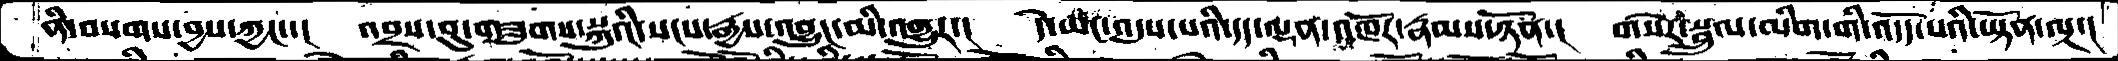ནི་བསགས་བྱས་ཀྱང་་།  འབྲས་བུ་གཟུགས་སྐུའི་སངས་རྒྱས་འབྱུང་མི་འགྱུར་།  དེ་ཡང་འདུས་པའི་དད་ལྡན་འཁོར་རྣམས་ཉོན་། གསེར་སྦྲུལ་མིག་གི་འདོད་པའི་ཡྟོན་ལྔ་།
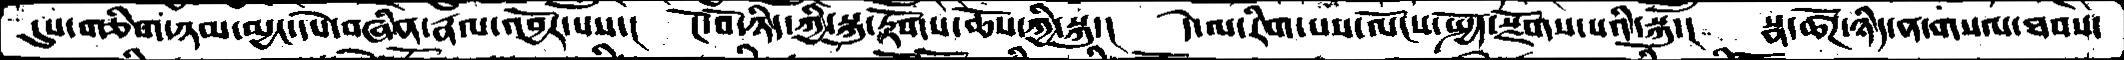དུས་གཅིག་ཉམ་མྱང་དཔེ་བཞིན་རྣལ་འབྱོར་པས་།  ངོ་བོ་ཉིད་ཀྱི་སྐུ་རྟོགས་ཆོས་ཀྱི་སྐུ་།  དེ་ལ་རིག་པས་ལོངས་སྤྱོད་སྫོགས་པའི་སྐུ་།  སྣ་ཚོཌ་ཉིད་ན་གསལ་ཐབས་
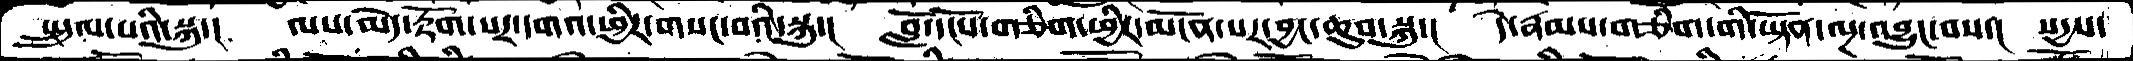སྤྲུལ་པའི་སྐུ་།  ལས་མེད་རྟོག་པར་དགའ་ཕྱིར་གསང་བའི་སྐུ་།  བློ་དངོས་གཅིག་ཕྱིར་མངོན་པར་བྱང་ཆུབ་སྐུ་།  དེ་རྣམས་གཅིག་གི་ཡྟོན་ལྔ་འབྱུང་པས་།  སདྱས་
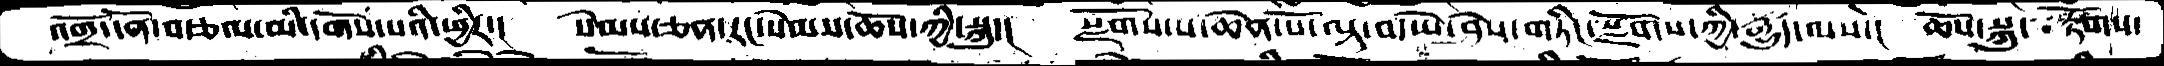འགྲོ་དོན་བརྩལ་མི་དགོས་པའི་ཕྱིར་།  སེམས་ཅན་རང་སེམས་ཆོས་ཀྱི་སྐུ་། སྫོགས་པ་ཆེན་པོ་ལྟ་བ་ཡེ་ཤེས་གཏིང་སྫོགས་ཀྱི་རྒྱུད་ལས་།  ཆོས་སྐུ་  རྟོགས་
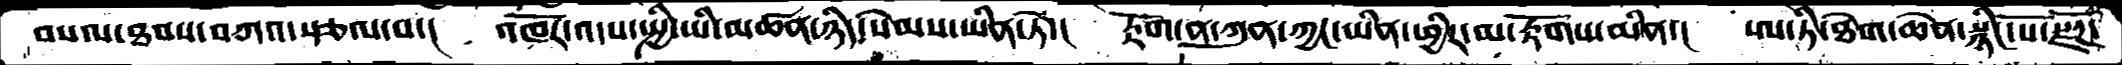བསལ་ཐབས་བཀའ་སྩལ་པ་།  འཁོར་འདས་སྤྱི་ཡི་མཚན་ཉིད་སེམས་ཡིན་ཏེ་།  རྟོག་ན་ཀུན་ཀྱང་ཡིན་ཕྱིར་མ་རྟོགས་མིན་།  ཨ་ཏི་ཐེག་ཆེན་སྙིང་པོ་སྫོཌ་
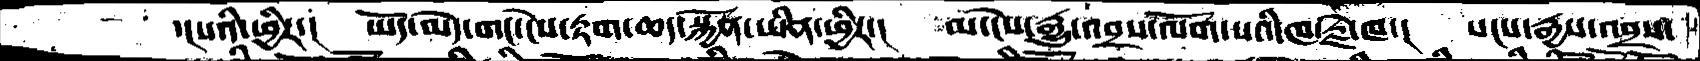་།པའི་ཕྱིར་།    ཡོད་མེད་གང་ངེས་རྟག་ཆད་སྐྱོན་ཡིན་ཕྱིར་།    མ་ངེས་རྒྱུ་འབྲས་ལོག་པའི་ཁ་རྗེ་ཁ་།    སངས་རྒྱས་འབྲས་
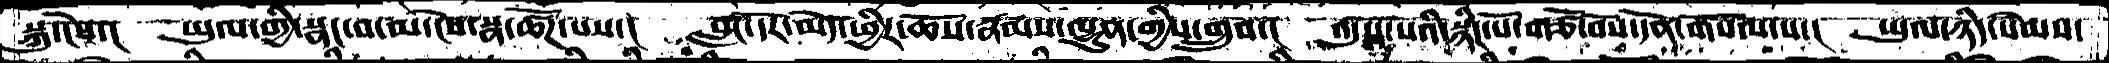སྐུ་ངེས་།   ཡུལ་གྱི་སྣང་བ་མ་ངེས་སྣ་ཚོཌ་པས་།   བླང་དོར་མེད་ཕྱིར་ཆོས་རྣམས་ལྷུན་གྱིས་གྲུབ་།   འདུས་པའི་སྙིང་པོ་གཙོ་བོས་དོན་གསལ་པ་།   ཡུལ་ཉིད་སེམས་
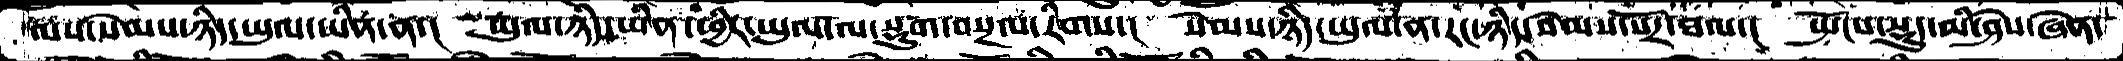ལས་སེམས་ཉིད་ཡུལ་ཡིན་ན་།   ཡུལ་ཉིད་ཡིན་ཕྱིར་ཡུལ་ལ་སྡུག་བསྔལ་རིགས་།   སེམས་ཉིད་ཡུལ་ན་རང་ཉིད་བེམས་པོར་ཐལ་།   སྤོངས་སྡུད་མི་ཤེས་ཞེན་
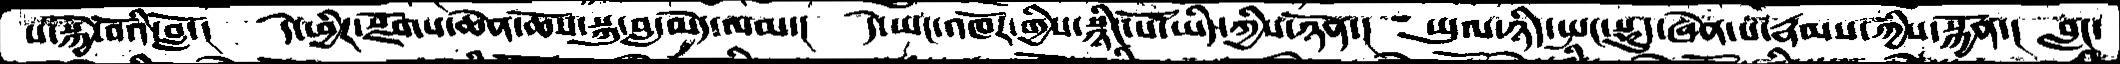པ་སྐྱེ་བོའི་བློ་།   དེ་ཕྱིར་སྫོགས་ཆེན་ཆོས་སྐུ་བླ་མེད་ལམ་།   དེ་ཡང་འཁོར་གྱིས་སྙིང་པོ་ཡིད་ཀྱིས་ཉོན་།   ཡུལ་ཉིད་སྤང་སྡུད་ཞེན་པ་རྣམས་ཀྱིས་སྐྱོན་།   བླང་
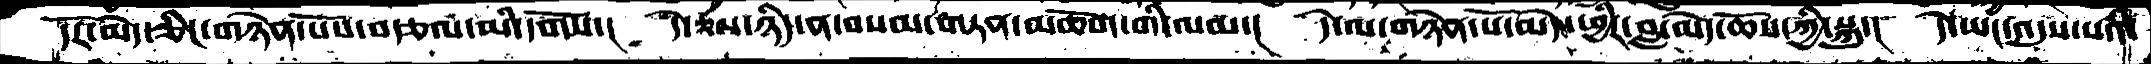དོར་མེད་ཅིང་གཉེན་པོས་བརྩལ་མི་དགོས་།   དེ་ཙམ་ཉིད་ན་བསམ་གཏན་མཆོག་གི་ལམ་།   དེ་ལ་གཉེན་པོ་མེད་ཕྱིར་བླ་མེད་ཆོས་ཀྱི་སྐུ་།    དེ་ཡང་འདུས་པའི་
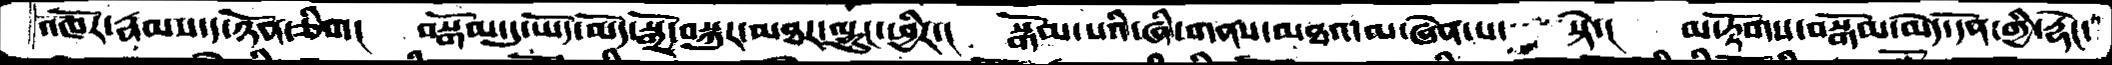འཁོར་རྣམས་ད་ཉོན་ཅིག།  བསྒོམ་དུ་ཡོད་མོད་སྒྲོ་བསྐུར་མཐར་ལྟུང་ཕྱིར་།  སྒོམ་པའི་ཞི་གནས་མཐའ་མ་ཞེས་པ་  སྟེ་།  མ་་རྟོགས་བསྒོམ་མེད་དོན་གྱི་རྡེང་
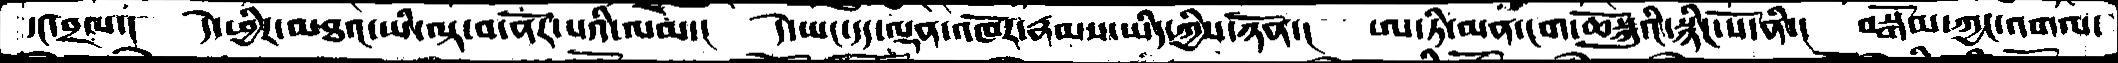དང་བྲལ་།  དེ་ཕྱིར་མཐའ་ཡི་ལྟ་བ་ནོར་པའི་ལམ་།  དེ་ཡང་དད་ལྡན་འཁོར་རྣམས་ཡིད་ཀྱིས་ཉོན་། ཨ་ཏི་མན་ངག་ཆོསྐུའི་སྙིང་པོ་ནི་། བསྒོམ་ཀྱང་འགལ་
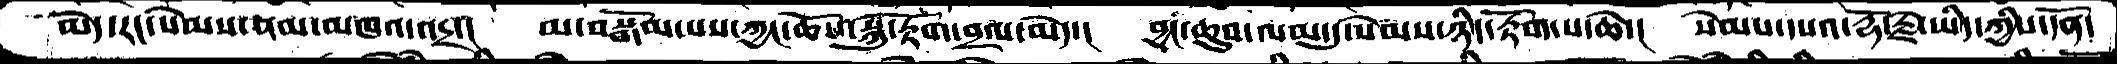མེད་རང་སེམས་ནམ་མཁའ་འདྲ་།  མ་བསྒོམ་པས་ཀྱང་ཆོས་སྐུ་རྟོག་བྲལ་མེད་།  བྱང་ཆུབ་ལམ་དུ་སེམས་ཉིད་རྟོག་པ་ཆེ་།  སེམས་དཔའ་རྡོ་རྗེ་ཡིད་ཀྱིས་དོན་
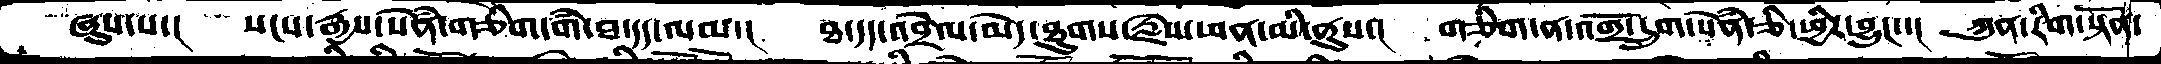ཞུས་པ་།  སངས་རྒྱས་སེནཾ་གཅིག་གཾ་ཐ་དད་ལམ་།  ཐ་དད་འབྲེལ་མེད་ཐུགས་རྗེས་ཕན་མི་ནུས་།  གཅིག་ན་འགྲོ་དྲུག་སེནཾ་ཅི་ཕྱིར་བྱུང་་།  ཀུན་རིག་སྟོན་
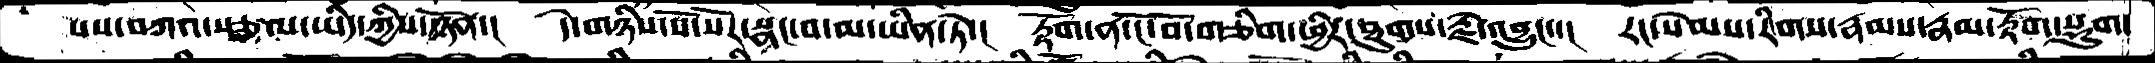པས་བཀའ་སྩལ་ཡིད་ཀྱིས་ཉོན་།  དེ་གཉིས་སོ་སོར་སྣང་བ་མ་ཡིན་ཏེ་།  རྟོག་ན་ངོ་བོ་གཅིག་ཕྱིར་ཐུགས་རྗེ་འབྱུང་་།  རང་སེམས་རིགས་རྣམས་རྣམ་རྟོག་སྡུག་
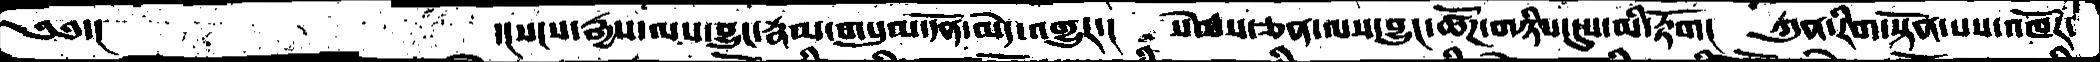༄༅་།             ་།སངས་རྒྱས་ལས་བྱུང་རྣམ་གསུམ་དོན་མེད་འགྱུར་།  སེམས་ཅན་ལས་བྱུང་ཚོགས་གཉིས་དུས་མི་རྟོག།  ཀུན་རིག་སྟོན་པས་འཁོར་
